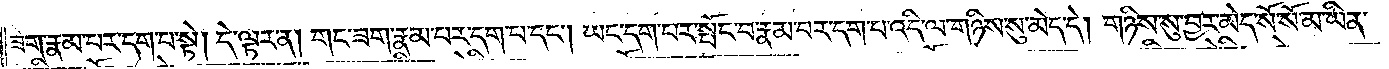ཟག་རྣམ་པར་དག་པ་སྟེ། དེ་ལྟར་ན། གང་ཟག་རྣམ་པར་དག་པ་དང༌། ཡང་དག་པར་སྤོང་བ་རྣམ་པར་དག་པ་འདི་ལ་གཉིས་སུ་མེད་དེ། གཉིས་སུ་བྱར་མེད་སོ་སོ་མ་ཡིན་
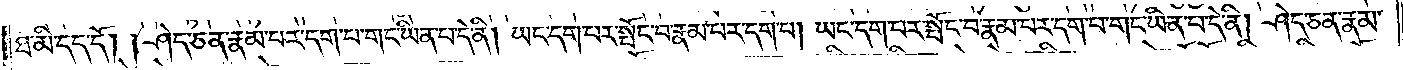ཐ་མི་དད་དོ། །ཤེད་ཅན་རྣམ་པར་དག་པ་གང་ཡིན་པ་དེ་ནི། ཡང་དག་པར་སྤོང་བ་རྣམ་པར་དག་པ། ཡང་དག་པར་སྤོང་བ་རྣམ་པར་དག་པ་གང་ཡིན་པ་དེ་ནི། ཤེད་ཅན་རྣམ་
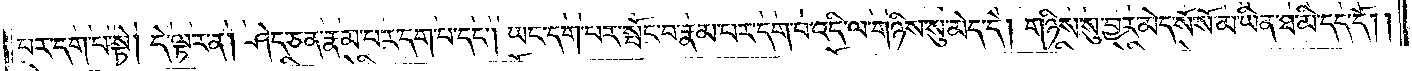པར་དག་པ་སྟེ། དེ་ལྟར་ན། ཤེད་ཅན་རྣམ་པར་དག་པ་དང༌། ཡང་དག་པར་སྤོང་བ་རྣམ་པར་དག་པ་འདི་ལ་གཉིས་སུ་མེད་དེ། གཉིས་སུ་བྱར་མེད་སོ་སོ་མ་ཡིན་ཐ་མི་དད་དོ། །
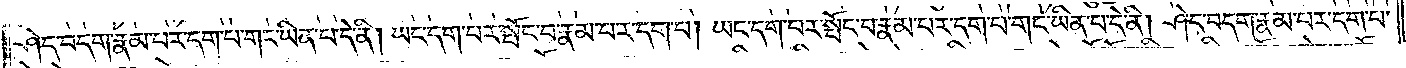ཤེད་བདག་རྣམ་པར་དག་པ་གང་ཡིན་པ་དེ་ནི། ཡང་དག་པར་སྤོང་བ་རྣམ་པར་དག་པ། ཡང་དག་པར་སྤོང་བ་རྣམ་པར་དག་པ་གང་ཡིན་པ་དེ་ནི། ཤེད་བདག་རྣམ་པར་དག་པ་
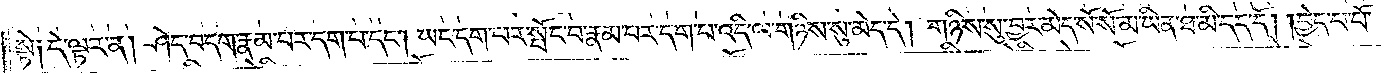སྟེ། དེ་ལྟར་ན། ཤེད་བདག་རྣམ་པར་དག་པ་དང༌། ཡང་དག་པར་སྤོང་བ་རྣམ་པར་དག་པ་འདི་ལ་གཉིས་སུ་མེད་དེ། གཉིས་སུ་བྱར་མེད་སོ་སོ་མ་ཡིན་ཐ་མི་དད་དོ། །བྱེད་པ་པོ་
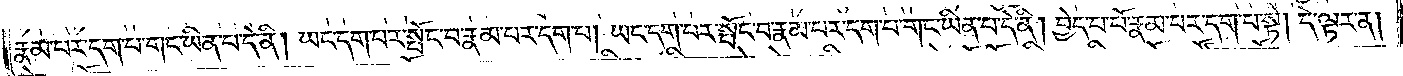རྣམ་པར་དག་པ་གང་ཡིན་པ་དེ་ནི། ཡང་དག་པར་སྤོང་བ་རྣམ་པར་དག་པ། ཡང་དག་པར་སྤོང་བ་རྣམ་པར་དག་པ་གང་ཡིན་པ་དེ་ནི། བྱེད་པ་པོ་རྣམ་པར་དག་པ་སྟེ། དེ་ལྟར་ན།
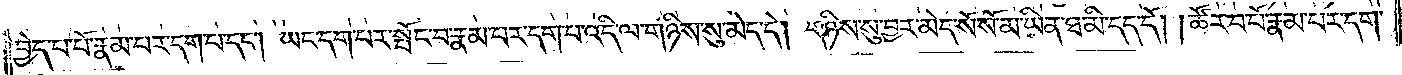བྱེད་པ་པོ་རྣམ་པར་དག་པ་དང༌། ཡང་དག་པར་སྤོང་བ་རྣམ་པར་དག་པ་འདི་ལ་གཉིས་སུ་མེད་དེ། གཉིས་སུ་བྱར་མེད་སོ་སོ་མ་ཡིན་ཐ་མི་དད་དེ། །ཚོར་བ་པོ་རྣམ་པར་དག་
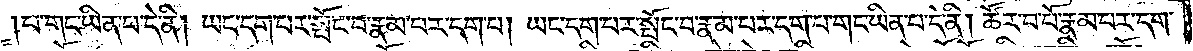པ་གང་ཡིན་པ་དེ་ནི། ཡང་དག་པར་སྤོང་བ་རྣམ་པར་དག་པ། ཡང་དག་པར་སྤོང་བ་རྣམ་པར་དག་པ་གང་ཡིན་པ་དེ་ནི། ཚོར་བ་པོ་རྣམ་པར་དག་
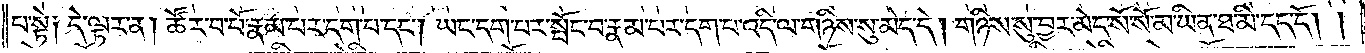པ་སྟེ། དེ་ལྟར་ན། ཚོར་བ་པོ་རྣམ་པར་དག་པ་དང༌། ཡང་དག་པར་སྤོང་བ་རྣམ་པར་དག་པ་འདི་ལ་གཉིས་སུ་མེད་དེ། གཉིས་སུ་བྱར་མེད་སོ་སོ་མ་ཡིན་ཐ་མི་དད་དོ། །
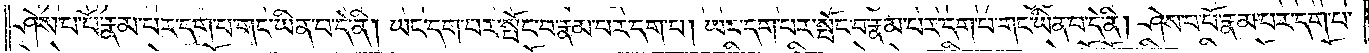ཤེས་པ་པོ་རྣམ་པར་དག་པ་གང་ཡིན་པ་དེ་ནི། ཡང་དག་པར་སྤོང་བ་རྣམ་པར་དག་པ། ཡང་དག་པར་སྤོང་བ་རྣམ་པར་དག་པ་གང་ཡིན་པ་དེ་ནི། ཤེས་པ་པོ་རྣམ་པར་དག་པ་
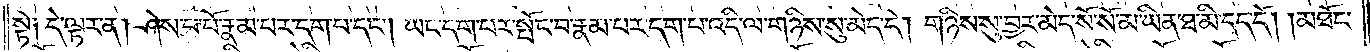སྟེ། དེ་ལྟར་ན། ཤེས་པ་པོ་རྣམ་པར་དག་པ་དང༌། ཡང་དག་པར་སྤོང་བ་རྣམ་པར་དག་པ་འདི་ལ་གཉིས་སུ་མེད་དེ། གཉིས་སུ་བྱར་མེད་སོ་སོ་མ་ཡིན་ཐ་མི་དད་དོ། །མཐོང་
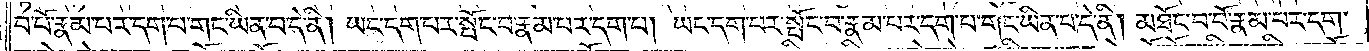བ་པོ་རྣམ་པར་དག་པ་གང་ཡིན་པ་དེ་ནི། ཡང་དག་པར་སྤོང་བ་རྣམ་པར་དག་པ། ཡང་དག་པར་སྤོང་བ་རྣམ་པར་དག་པ་གང་ཡིན་པ་དེ་ནི། མཐོང་བ་པོ་རྣམ་པར་དག་
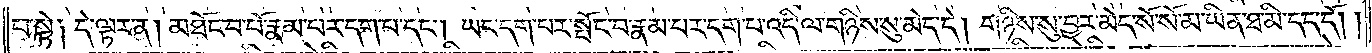པ་སྟེ། དེ་ལྟར་ན། མཐོང་བ་པོ་རྣམ་པར་དག་པ་དང༌། ཡང་དག་པར་སྤོང་བ་རྣམ་པར་དག་པ་འདི་ལ་གཉིས་སུ་མེད་དེ། གཉིས་སུ་བྱར་མེད་སོ་སོ་མ་ཡིན་ཐ་མི་དད་དོ། །
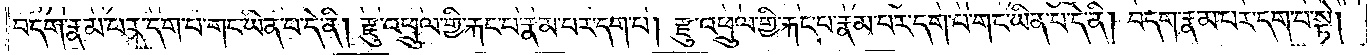བདག་རྣམ་པར་དག་པ་གང་ཡིན་པ་དེ་ནི། རྫུ་འཕྲུལ་གྱི་རྐང་པ་རྣམ་པར་དག་པ། རྫུ་འཕྲུལ་གྱི་རྐང་པ་རྣམ་པར་དག་པ་གང་ཡིན་པ་དེ་ནི། བདག་རྣམ་པར་དག་པ་སྟེ།
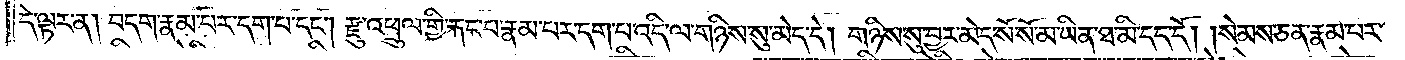དེ་ལྟར་ན། བདག་རྣམ་པར་དག་པ་དང༌། རྫུ་འཕྲུལ་གྱི་རྐང་པ་རྣམ་པར་དག་པ་འདི་ལ་གཉིས་སུ་མེད་དེ། གཉིས་སུ་བྱར་མེད་སོ་སོ་མ་ཡིན་ཐ་མི་དད་དོ། །སེམས་ཅན་རྣམ་པར་
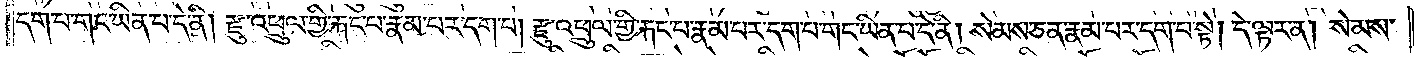དག་པ་གང་ཡིན་པ་དེ་ནི། རྫུ་འཕྲུལ་གྱི་རྐང་པ་རྣམ་པར་དག་པ། རྫུ་འཕྲུལ་གྱི་རྐང་པ་རྣམ་པར་དག་པ་གང་ཡིན་པ་དེ་ནི། སེམས་ཅན་རྣམ་པར་དག་པ་སྟེ། དེ་ལྟར་ན། སེམས་
